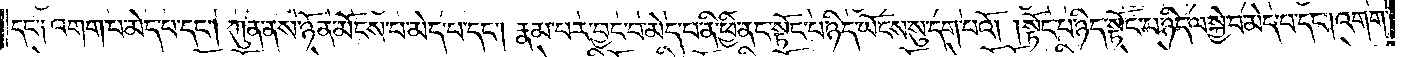དང་༑ འགག་པ་མེད་པ་དང༌། ཀུན་ནས་ཉོན་མོངས་པ་མེད་པ་དང༌། རྣམ་པར་བྱང་བ་མེད་པ་ནི་ཕྱི་ནང་སྟོང་པ་ཉིད་ཡོངས་སུ་དག་པའོ། །སྟོང་པ་ཉིད་སྟོང་པ་ཉིད་ལ་སྐྱེ་བ་མེད་པ་དང༌། འགག་
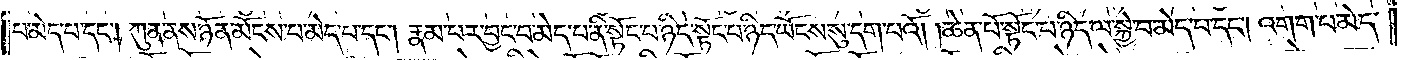པ་མེད་པ་དང༌། ཀུན་ནས་ཉོན་མོངས་པ་མེད་པ་དང༌། རྣམ་པར་བྱང་བ་མེད་པ་ནི་སྟོང་པ་ཉིད་སྟོང་པ་ཉིད་ཡོངས་སུ་དག་པའོ། །ཆེན་པོ་སྟོང་པ་ཉིད་ལ་སྐྱེ་བ་མེད་པ་དང༌། འགག་པ་མེད་
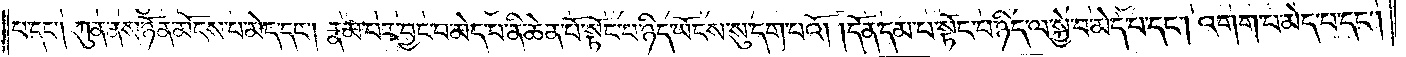པ་དང༌། ཀུན་ནས་ཉོན་མོངས་པ་མེད་པ་དང༌། རྣམ་པར་བྱང་བ་མེད་པ་ནི་ཆེན་པོ་སྟོང་པ་ཉིད་ཡོངས་སུ་དག་པའོ། །དོན་དམ་པ་སྟོང་པ་ཉིད་ལ་སྐྱེ་བ་མེད་པ་དང༌། འགག་པ་མེད་པ་དང༌།
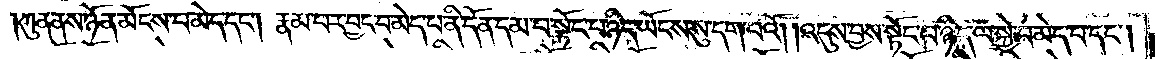ཀུན་ནས་ཉོན་མོངས་པ་མེད་པ་དང༌། རྣམ་པར་བྱང་བ་མེད་པ་ནི་དོན་དམ་པ་སྟོང་པ་ཉིད་ཡོངས་སུ་དག་པའོ། །འདུས་བྱས་སྟོང་པ་ཉིད་ལ་སྐྱེ་བ་མེད་པ་དང༌།
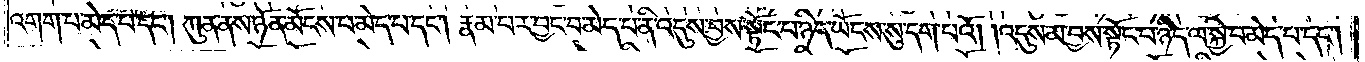འགག་པ་མེད་པ་དང༌། ཀུན་ནས་ཉོན་མོངས་པ་མེད་པ་དང༌། རྣམ་པར་བྱང་བ་མེད་པ་ནི་འདུས་བྱས་སྟོང་པ་ཉིད་ཡོངས་སུ་དག་པའོ། །འདུས་མ་བྱས་སྟོང་པ་ཉིད་ལ་སྐྱེ་བ་མེད་པ་དང༌།
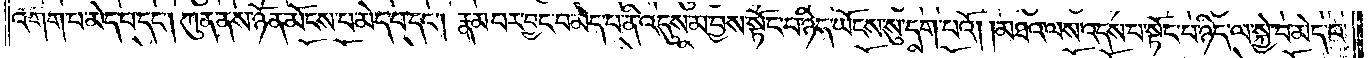འགག་པ་མེད་པ་དང༌། ཀུན་ནས་ཉོན་མོངས་པ་མེད་པ་དང༌། རྣམ་པར་བྱང་བ་མེད་པ་ནི་འདུས་མ་བྱས་སྟོང་པ་ཉིད་ཡོངས་སུ་དག་པའོ། །མཐའ་ལས་འདས་པ་སྟོང་པ་ཉིད་ལ་སྐྱེ་བ་མེད་པ་
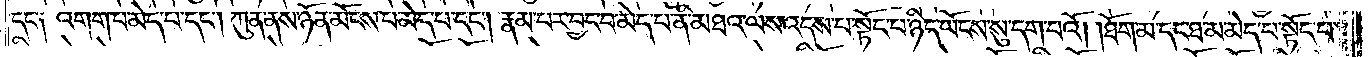དང་༑ འགག་པ་མེད་པ་དང༌། ཀུན་ནས་ཉོན་མོངས་པ་མེད་པ་དང༌། རྣམ་པར་བྱང་བ་མེད་པ་ནི་མཐའ་ལས་འདས་པ་སྟོང་པ་ཉིད་ཡོངས་སུ་དག་པའོ། །ཐོག་མ་དང་ཐ་མ་མེད་པ་སྟོང་པ་
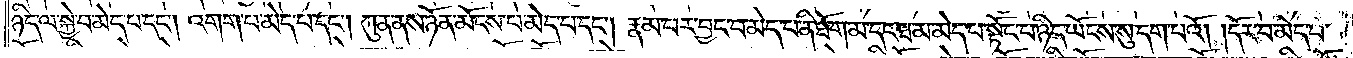ཉིད་ལ་སྐྱེ་བ་མེད་པ་དང༌། འགག་པ་མེད་པ་དང༌། ཀུན་ནས་ཉོན་མོངས་པ་མེད་པ་དང༌། རྣམ་པར་བྱང་བ་མེད་པ་ནི་ཐོག་མ་དང་ཐ་མ་མེད་པ་སྟོང་པ་ཉིད་ཡོངས་སུ་དག་པའོ། །དོར་བ་མེད་པ་
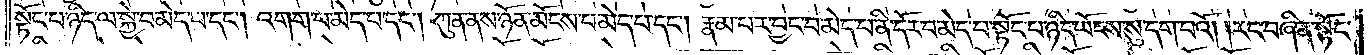སྟོང་པ་ཉིད་ལ་སྐྱེ་བ་མེད་པ་དང༌། འགག་པ་མེད་པ་དང༌། ཀུན་ནས་ཉོན་མོངས་པ་མེད་པ་དང༌། རྣམ་པར་བྱང་བ་མེད་པ་ནི་དོར་བ་མེད་པ་སྟོང་པ་ཉིད་ཡོངས་སུ་དག་པའོ། །རང་བཞིན་སྟོང་
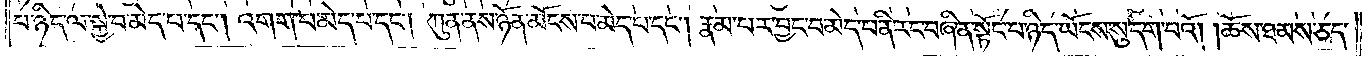པ་ཉིད་ལ་སྐྱེ་བ་མེད་པ་དང༌། འགག་པ་མེད་པ་དང༌། ཀུན་ནས་ཉོན་མོངས་པ་མེད་པ་དང༌། རྣམ་པར་བྱང་བ་མེད་པ་ནི་རང་བཞིན་སྟོང་པ་ཉིད་ཡོངས་སུ་དག་པའོ། །ཆོས་ཐམས་ཅད་
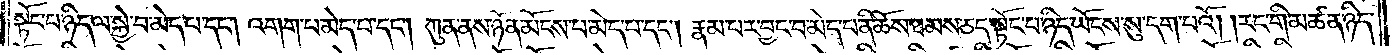སྟོང་པ་ཉིད་ལ་སྐྱེ་བ་མེད་པ་དང༌། འགག་པ་མེད་པ་དང༌། ཀུན་ནས་ཉོན་མོངས་པ་མེད་པ་དང༌། རྣམ་པར་བྱང་བ་མེད་པ་ནི་ཆོས་ཐམས་ཅད་སྟོང་པ་ཉིད་ཡོངས་སུ་དག་པའོ། །རང་གི་མཚན་ཉིད་
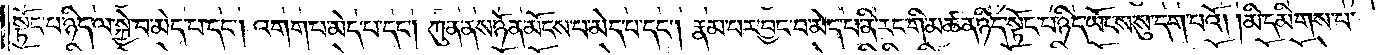སྟོང་པ་ཉིད་ལ་སྐྱེ་བ་མེད་པ་དང༌། འགག་པ་མེད་པ་དང༌། ཀུན་ནས་ཉོན་མོངས་པ་མེད་པ་དང༌། རྣམ་པར་བྱང་བ་མེད་པ་ནི་རང་གི་མཚན་ཉིད་སྟོང་པ་ཉིད་ཡོངས་སུ་དག་པའོ། །མི་དམིགས་པ་
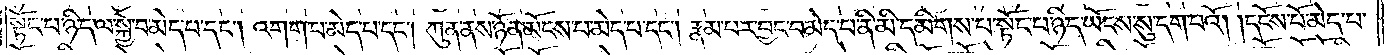སྟོང་པ་ཉིད་ལ་སྐྱེ་བ་མེད་པ་དང༌། འགག་པ་མེད་པ་དང༌། ཀུན་ནས་ཉོན་མོངས་པ་མེད་པ་དང༌། རྣམ་པར་བྱང་བ་མེད་པ་ནི་མི་དམིགས་པ་སྟོང་པ་ཉིད་ཡོངས་སུ་དག་པའོ། །དངོས་པོ་མེད་པ་
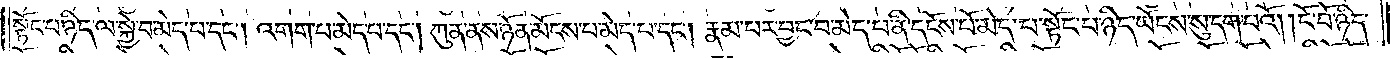སྟོང་པ་ཉིད་ལ་སྐྱེ་བ་མེད་པ་དང༌། འགག་པ་མེད་པ་དང༌། ཀུན་ནས་ཉོན་མོངས་པ་མེད་པ་དང༌། རྣམ་པར་བྱང་བ་མེད་པ་ནི་དངོས་པོ་མེད་པ་སྟོང་པ་ཉིད་ཡོངས་སུ་དག་པའོ། །ངོ་བོ་ཉིད་
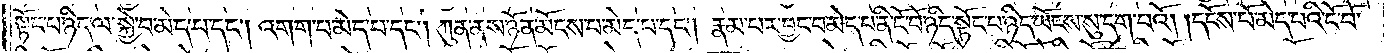སྟོང་པ་ཉིད་ལ་སྐྱེ་བ་མེད་པ་དང༌། འགག་པ་མེད་པ་དང༌། ཀུན་ནས་ཉོན་མོངས་པ་མེད་པ་དང༌། རྣམ་པར་བྱང་བ་མེད་པ་ནི་ངོ་བོ་ཉིད་སྟོང་པ་ཉིད་ཡོངས་སུ་དག་པའོ། །དངོས་པོ་མེད་པའི་ངོ་བོ་
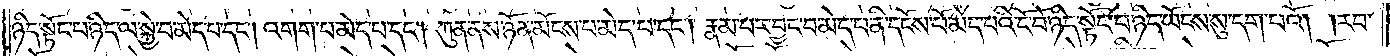ཉིད་སྟོང་པ་ཉིད་ལ་སྐྱེ་བ་མེད་པ་དང༌། འགག་པ་མེད་པ་དང༌། ཀུན་ནས་ཉོན་མོངས་པ་མེད་པ་དང༌། རྣམ་པར་བྱང་བ་མེད་པ་ནི་དངོས་པོ་མེད་པའི་ངོ་བོ་ཉིད་སྟོང་པ་ཉིད་ཡོངས་སུ་དག་པའོ། །རབ་
